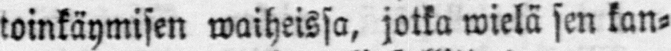roinkäymisen waiheissa, jotka wielä sen kan-
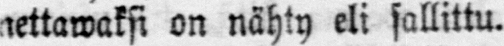nettawaksi on nähty eli sallittu.
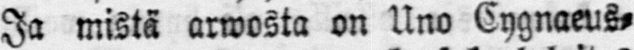Ja mistä arwosta on Uno Cygnaeus-
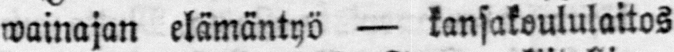wainajan elämäntyö — kansakoululaitos
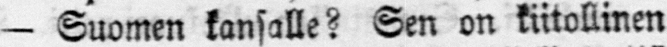— Suomen kansalle? Sen on kiitollinen
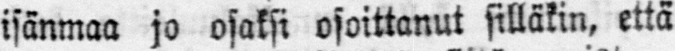isänmaa jo osaksi osoittanut silläkin, että
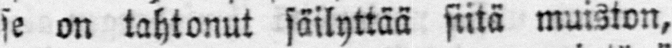se on tahtonut säilyttää siitä muiston,
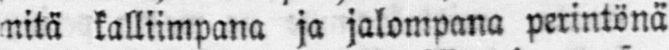mitä kalliimpana ja jalompana perintönä
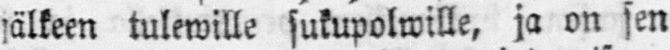jälkeen tulewille sukupolwille, ja on sen
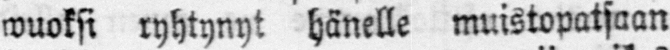wuoksi ryhtynyt hänelle muistopatsaan
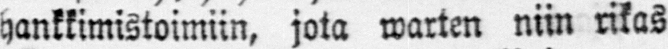hankkimistoimiin, jota warten niin rikas
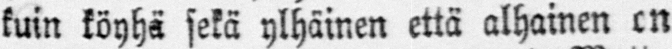kuin köyhä sekä ylhäinen että alhainen on
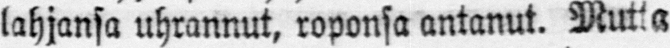lahjansa uhrannut, roponsa antanut. Mutta
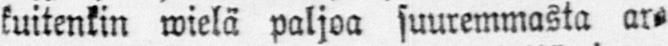kuitenkin wielä paljoa suuremmasta ar-
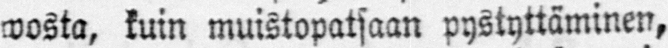wosta, kuin muistopatsaan pystyttäminen,
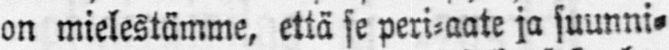on mielestämme, että se peri-aate ja suunni-
